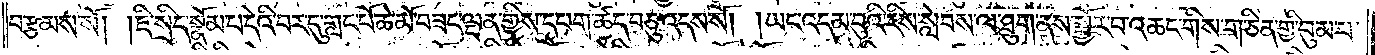བརྩམས་སོ། །ཇི་སྲིད་སྣོམ་པ་དེའི་བར་དུ་གླང་པོ་ཆེ་མོ་བཟང་ལྡན་གྱིས་དཔག་ཚད་བཅུ་འདས་སོ། །ཡང་འདམ་བུའི་རིས་སླེབས་ལ་ཐུག་ནས་སྦྱོར་བ་འཆང་གིས་གཅིན་གྱི་བུམ་པ་
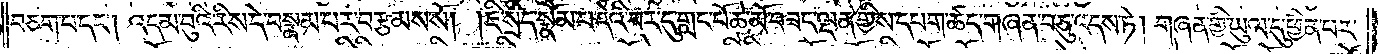བཅག་པ་དང༌། འདམ་བུའི་རིས་དེ་བསྣམ་པར་བརྩམས་སོ། །ཇི་སྲིད་སྣོམ་པ་དེའི་བར་དུ་གླང་པོ་ཆེ་མོ་བཟང་ལྡན་གྱིས་དཔག་ཚད་གཞན་བཅུ་འདས་ཏེ། གཞན་གྱི་ཡུལ་དུ་ཕྱིན་པར་
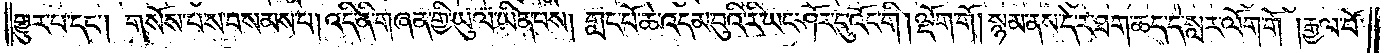གྱུར་པ་དང༌། གསོས་པས་བསམས་པ། འདི་ནི་གཞན་གྱི་ཡུལ་ཡིན་པས། གླང་པོ་ཆེ་འདམ་བུའི་རི་ཡང་ཤོར་དུ་འོང་གི །ལྡོག་གོ། སྙམ་ནས་དེ་རེ་ཐག་ཆད་དེ་སླར་ལོག་གོ །རྒྱལ་པོ་
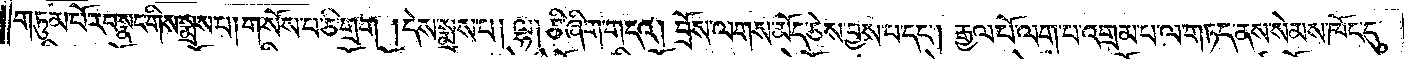གཏུམ་པོ་རབ་སྣང་གིས་སྨྲས་པ། གསོས་པ་ཅི་གྲག །དེས་སྨྲས་པ། ལྷ། ཅི་ཞིག་གདའ། བྲོས་ལགས་མོད་ཅེས་བྱས་པ་དང༌། རྒྱལ་པོ་ལག་པ་འགྲམ་པ་ལ་གཏད་ནས་སེམས་ཁོང་དུ་
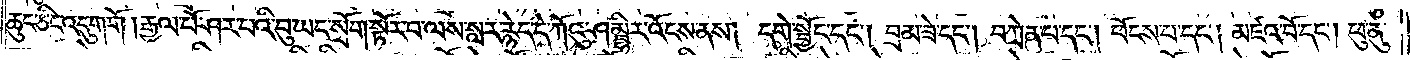ཆུང་ཅིང་འདུག་གོ །རྒྱལ་པོ་ཤར་པའི་བུ་ཡང་སྲོག་སྟོར་བ་ལས་སླར་རྙེད་དེ་ཀོའུ་ཤམྦྷིར་འོངས་ནས། དགེ་སྦྱོང་དང༌། བྲམ་ཟེ་དང༌། བཀྲེན་པ་དང༌། ཕོངས་པ་དང༌། མཛའ་བོ་དང༌། ཕུ་ནུ་
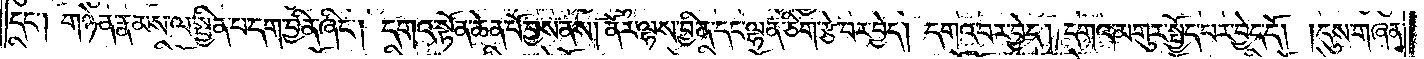དང༌། གཉེན་རྣམས་ལ་སྤྱིན་བདག་བྱིན་ཞིང༌། དགའ་སྟོན་ཆེན་པོ་བྱས་ནས། ནོར་ལྷས་བྱིན་དང་ལྷན་ཅིག་རྩེ་བར་བྱེད། དགའ་བར་བྱེད། དགའ་མགུར་སྤྱོད་པར་བྱེད་དོ། །དུས་གཞན་
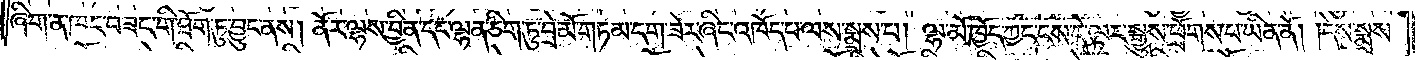ཞིག་ན་ཁང་བཟང་གི་ཐོག་ཏུ་བྱུང་ནས། ནོར་ལྷས་བྱིན་དང་ལྷན་ཅིག་ཏུ་བྲེ་མོ་གཏམ་དག་ཟེར་ཞིང་འཁོད་པ་ལས་སྨྲས་པ། ལྷ་མོ་ཁྱོད་ཀྱང་ངས་དེ་ལྟར་སྒྱུས་ཕྲོགས་པ་ཡིན་ནོ། །དེས་སྨྲས་
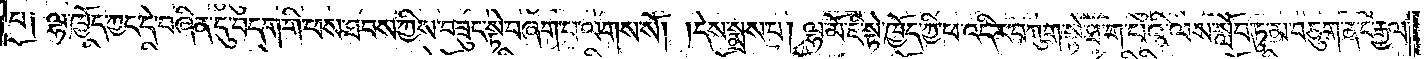པ༑ ལྷ་ཁྱོད་ཀྱང་དེ་བཞིན་དུ་བདག་གིས་ཕས་ཐབས་ཀྱིས་བཟུང་སྟེ་བཞག་པ་ལགས་སོ། །དེས་སྨྲས་པ། ལྷ་མོ་ཇི་སྟེ་ཁྱོད་ཀྱི་ཕ་འདིར་བཀུག་སྟེ་ཐ་ག་པའི་ལས་སློབ་ཏུ་མ་བཅུག་ན་ང་རྒྱལ་
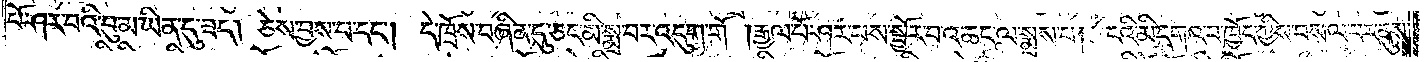པོ་ཤར་པའི་བུ་མ་ཡིན་དུ་ཟད། ཅེས་བྱས་པ་དང༌། དེ་ཁྲོས་བཞིན་དུ་ཅང་མི་སྨྲ་བར་འདུག་གོ །རྒྱལ་པོ་ཤར་པས་སྦྱོར་བ་འཆང་ལ་སྨྲས་པ། ངའི་མི་དགའ་བ་ཁྱོད་ཀྱིས་བསལ་བར་ནུས་
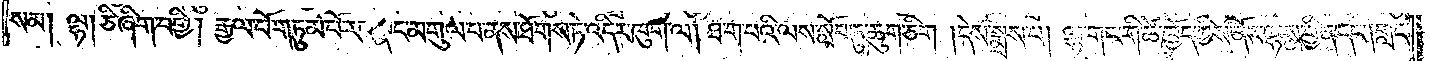སམ། ལྷ། ཅི་ཞིག་བགྱི། རྒྱལ་པོ་གཏུམ་པོ་རབ་སྣང་མགུལ་པ་ནས་ཐོགས་ཏེ་འདིར་ཁུག་ལ། ཐ་ག་པའི་ལས་སློབ་ཏུ་ཆུག་ཅིག །དེས་སྨྲས་པ། ལྷ་གང་གི་ཚེ་ཁྱོད་ཀྱིས་ནོར་ལྷས་བྱིན་དང༌། གླང་
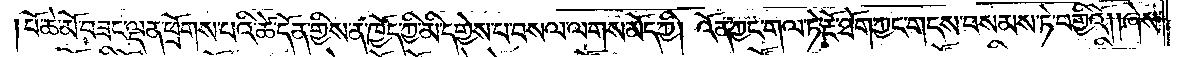པོ་ཆེ་མོ་བཟང་ལྡན་ཕྲོགས་པའི་ཚེ་དོན་གྱིས་ན་ཁྱོད་ཀྱི་མི་དགྱེས་པ་བསལ་ལགས་མོད་ཀྱི། འོན་ཀྱང་གལ་ཏེ་རྔོ་ཐོག་ཀྱང་གདས་བསམས་ཏེ་བགྱིའོ། །ཞེས་
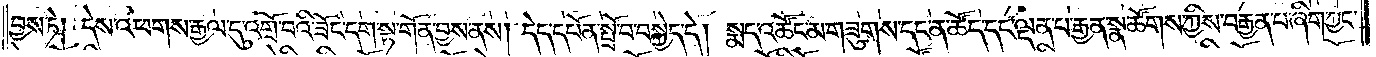བྱས་ཏེ། དེས་འཕགས་རྒྱལ་དུ་འགྲོ་བའི་ཟོང་དག་སྟ་གོན་བྱས་ནས། དེད་དཔོན་སྤྲོ་བ་བསྐྱེད་དེ། སྨད་འཚོང་མ་གཟུགས་དང་ན་ཚོད་དང་ལྡན་པ་རྒྱན་སྣ་ཚོགས་ཀྱིས་བརྒྱན་པ་ཞིག་ཀྱང་
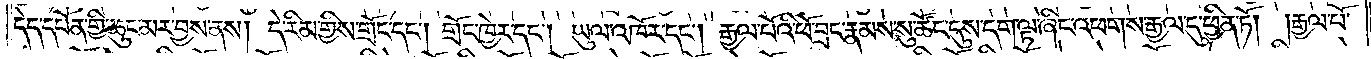དེད་དཔོན་གྱི་ཆུང་མར་བྱས་ནས། དེ་རིམ་གྱིས་གྲོང་དང༌། གྲོང་ཁྱེར་དང༌། ཡུལ་འཁོར་དང༌། རྒྱལ་པོའི་ཕོ་བྲང་རྣམས་སུ་ཚོང་དུས་དག་ལྟ་ཞིང་འཕགས་རྒྱལ་དུ་ཕྱིན་ཏོ། །རྒྱལ་པོ་
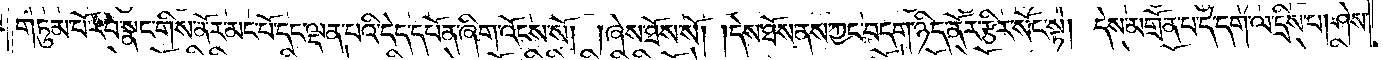གཏུམ་པོ་རབ་སྣང་གིས་ནོར་མང་པོ་དང་ལྡན་པའི་དེད་དཔོན་ཞིག་འོངས་སོ། །ཞེས་ཐོས་སོ། །དེས་ཐོས་ནས་ཀྱང་བདག་ཉིད་ནོར་རྩིར་སོང་སྟེ། དེས་མགྲོན་པ་དེ་དག་ལ་དྲིས་པ། ཤེས་
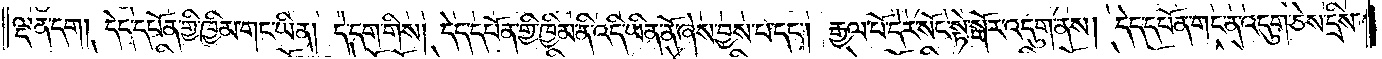ལྡན་དག། དེད་དཔོན་གྱི་ཁྱིམ་གང་ཡིན། དེ་དག་གིས། དེད་དཔོན་གྱི་ཁྱིམ་ནི་འདི་ཡིན་ནོ་ཞེས་བྱས་པ་དང༌། རྒྱལ་པོ་དེར་སོང་སྟེ་སྒོར་འདུག་ནས། དེད་དཔོན་གང་ན་འདུག་ཅེས་དྲིས་
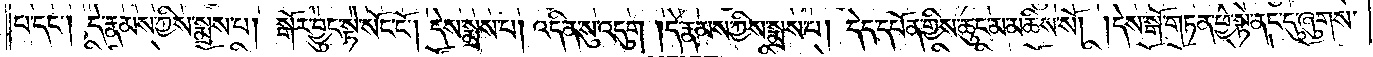པ་དང༌། དེ་རྣམས་ཀྱིས་སྨྲས་པ། སྒོར་བྱུང་སྟེ་སོང་ངོ༌། དེ་སྨྲས་པ། འདི་ན་སུ་འདུག །དེ་རྣམས་ཀྱིས་སྨྲས་པ། དེད་དཔོན་གྱིས་ཆུང་མ་མཆིས་སོ། །དེས་སྒོ་གཏན་ཕྱེ་སྟེ་ནང་དུ་ཞུགས་
